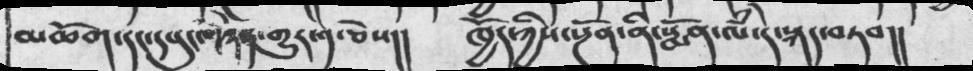མཆོག་དང་དཔུང་གཉེན་གྱུར་༡་ཅེས།།   ཁྱོད་ཀྱིས་སྔོན་ནི་སྨོན་ལཾ་དེ་སྐད་བཏབ།།
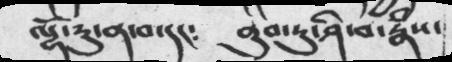ལྷོ་རུ་ན་བ་དང༴   ནུབ་ཏུ་ཤི་བ་རྣཾས་
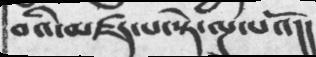བའི་མཛད་པ་སྟེ་ལྔ་པའོ།།
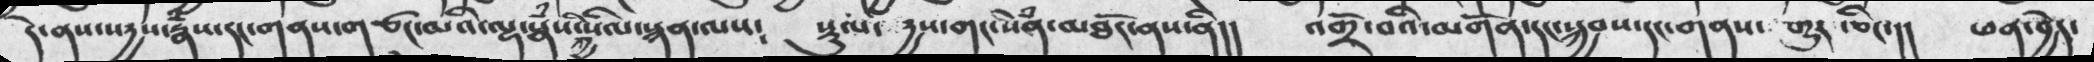དེ་ནས་སདྱས་རྣྃས་རང་གནས་གཙང་མའི་ལྷ་རྣཾས་ཀྱི་སིལ་སྙན་ལས༴  སྡུལ་སདྱས་གང་སེཾན་མཐོང་ནས་ནི།།  འགྲོ་བའི་མགོན་དང་སྐྱབས་དང་གནས་གྱུར་ཅིང་།།  ཕན་བྱེད་
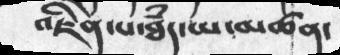འཇིན་པ་ཐཾད་ཡ་མཚན་
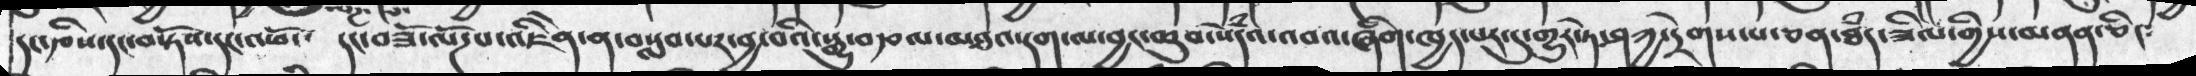དང་རྩིས་དང་བསྟོས་དང་འཕོ་  དང་བཟོ་ལོཌཔ་འཇིེན་ན་བསླབ་པར་བྱ་བའི་སྒྱུ་བརྩལ་མཐའ་དག་ལ་བྱང་ཆུབ་སེཾདའ་འབའ་ཞིག་ཁྱད་པར་དུ་གྱུར་ཏེ་ཤཀྱ་དྲེགས་པ་ཅན་ཐཾད་ཟིལ་གྱིས་མནན་ཅིང༴
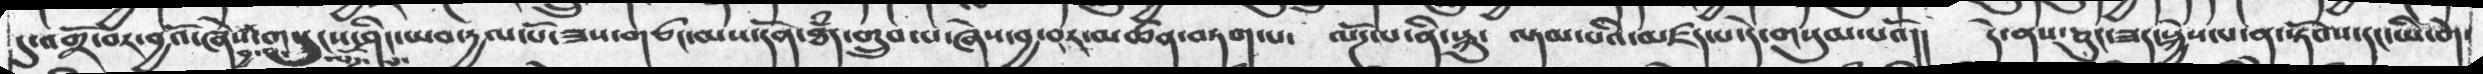དུ་འགྲོ་བར་བྱའོ་ཞེས་བྱ་གསུངས་ཤིང་ཡབ་དྱལ་པོ་ཟས་གཙང་མས་དོན་ཐཾད་གྲུབ་པ་ཞེས་བྱ་བར་མཚན་བཏགས་པ་  ལོཌ་པ་ནི་སྐུ་  ལྟམ་པའི་མཛད་པ་དེ་གསུམ་པའོ།།  དེ་ནས་ཅུང་ཟད་སྐྱེས་པ་ན་སྟོབས་དང་ཡི་གེ
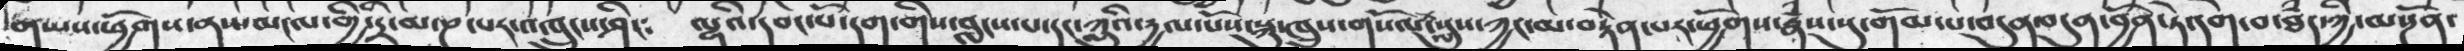གཡས་ཕྱོགས་ནས་མངལ་གྱི་དྲི་མ་ཎ་པར་འཁྲུངས་ཤིང༴  ལྷའི་དབང་པོ་དག་གིས་བླངས་པ་དང་ཀླུའི་དྱལ་པོས་སྐུ་ཁྲུས་གསོལ་སླུས་ཀྱང་མ་བརྟེན་པར་ཕྱོགས་རྣཾས་སུ་གོམ་པ་བདུན་བདུན་བྱོན་ཏེ་དགེ་བ་ཐཾད་ཀྱི་མསྔོན་
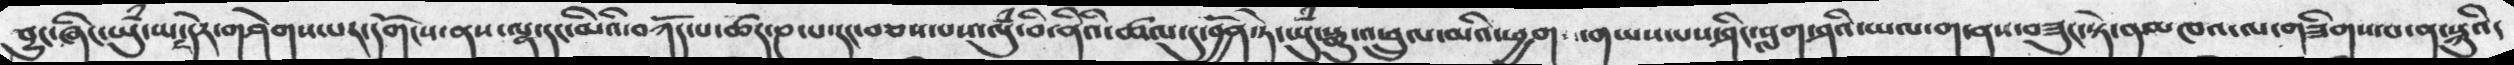བྱུང་ཞིང་ཡུཾ་ཡང་དེར་གཤེགས་པར་དགོངས་ནས་ལྷ་དང་མིའི་བཀོད་པ་ཚད་ཎ་པ་རང་བཅས་པས་ལུཾ་བི་ནིའི་ཚལ་དུ་བྱོན་ཏེ་ཡུཾ་སྒྱུ་འཕྲུལ་མའི་ཕྱག་  གཡས་པས་ཤིང་སླག་ཤའི་ཡལ་ག་ནས་བཟུང་སྟེ་ནམཁའ་ལ་གཟིགས་པ་ན་སྐུའི་
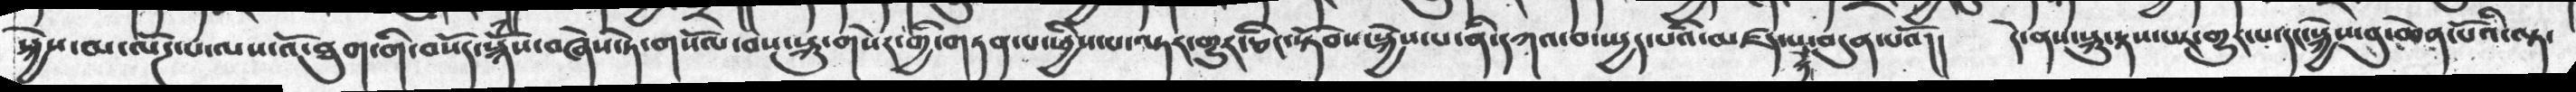སྐྱེས་མ་ལོཌ་པ་ལས་འོ་ཐུག་གི་བསོད་སྙོཾས་བཞེས་ཏེ་གསོལ་བས་སྐུ་གསེར་གྱི་གཏན་པ་ཕྱིས་པ་ལྟར་གྱུར་ཅིང་སྟོབས་སྐྱེས་པ་ནི་དཀའ་བ་སྤྱད་པའི་མཛད་པ་སྟེ་བདུན་པའོ།།  དེ་ནས་སྐུ་རྟས་པར་གྱུར་པ་དང་སྐྱེས་བུ་ཆེན་པོའི་ལྟ་
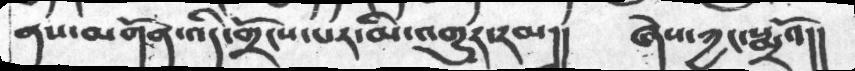ནས་མགོན་འདི་གྲོངས་པར་མི་འགྱུར་རམ།།   ཞེས་ཀྱང་སྨྲའོ།།
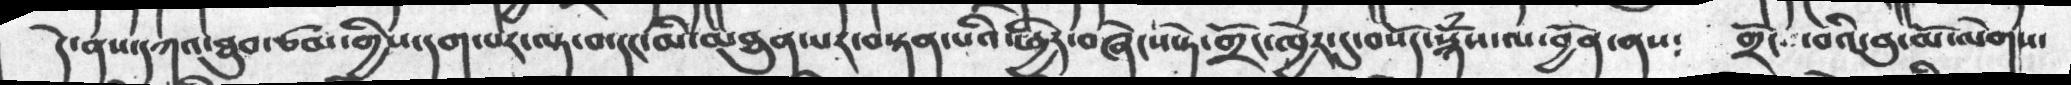དེ་ནས་དཀའ་ཐུབ་ཙམ་གྱིས་དག་པར་ལྟ་བ་དང་མི་མཐུན་པར་བསྟན་པའི་ཕྱིར་བཞེངས་ཏེ་གྲོང་ཁྱེར་དུ་བསོད་སྙོཾས་ལ་བྱོན་ནས༴  གྲོང ་བའི་བུ་མོ་ལེགས་
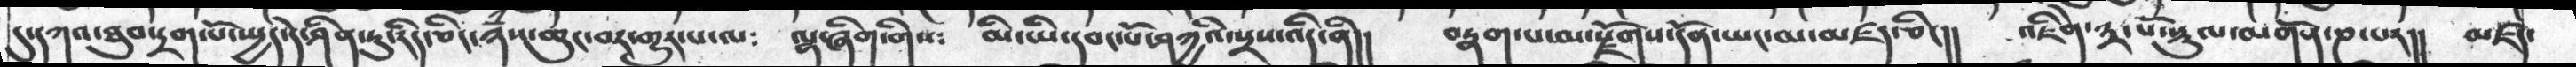དུ་དཀའ་ཐུབ་དྲག་པོ་སྤྱད་དེ་ཤིན་ཏུ་རིད་ཅིང་ཉཾས་ཆུང་བར་གྱུར་པ་ལ༴  ལྷ་ཞིག་གིས༴  མི་ཡི་དབང་པོ་ཤཀྱའི་སྲས་འདི་ནི།།  བརྣག་པ་མ་རྫོགས་དོན་ཡང་མ་མཛད་ཅིང།།  འཇིེན་༣་པོ་སྡུལ་མགོན་ཎ་པར།།  མཛད་
